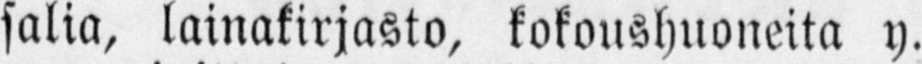salia, lainakirjasto, kokoushuoneita y.
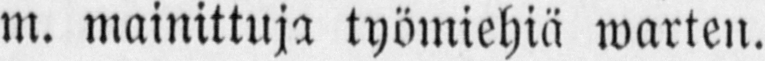m. mainittuja työmiehiä warten.
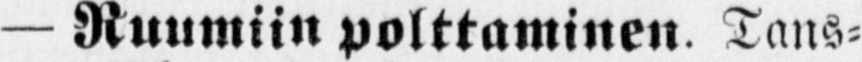— Ruumiin polttaminen Tans-
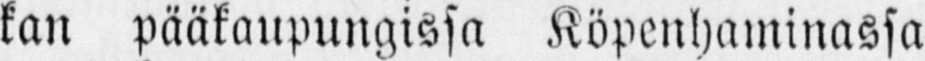kan pääkaupungissa Köpenhaminassa
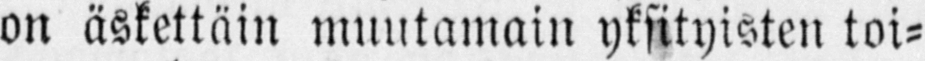on äskettäin muutamain yksityisten toi-
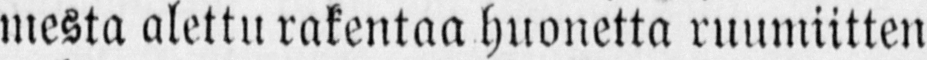mesta alettu rakentaa huonetta ruumiitten
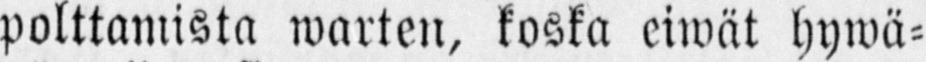polttamista warten, koska eiwät hywä-
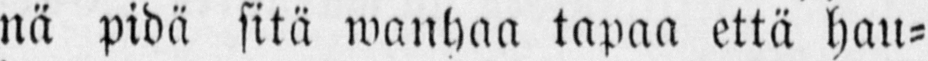nä pidä sitä wanhan tapaa että hau-
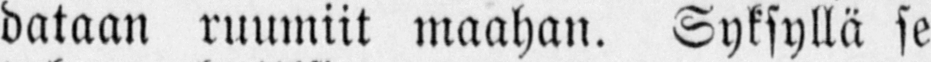dataan ruumiit maahan. Syksyllä se
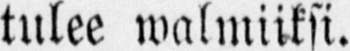tulee walmiiksi.
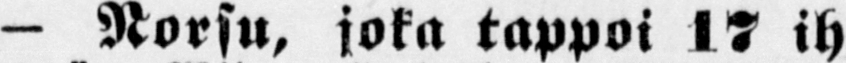- Norsu, joka tappoi 17 ih-
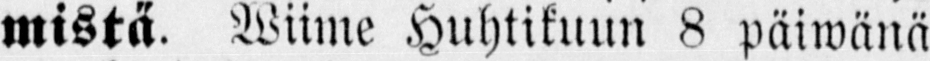mistä. Wiime Huhtikuun 8 päiwänä
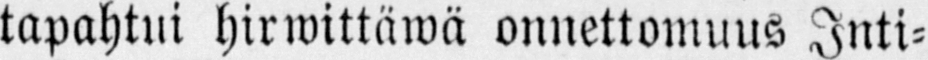tapahtui hirwittäwä onnettomuus Inti-
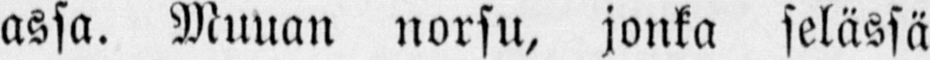assa. Muuan norsu, jonka selässä
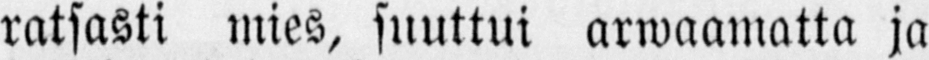ratsasti mies, suuttui arwaamatta ja
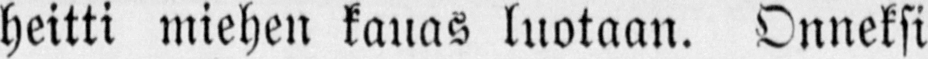heitti miehen kauas luotaan. Onneksi
